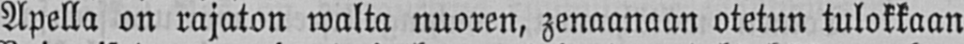Apella on rajaton walta nuoren, zenaanaan otetun tulokkaan
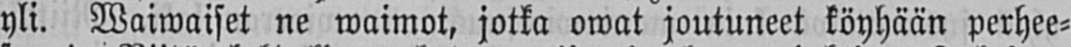yli. Waiwaiset ne waimot, jotka owat joutuneet köyhään perhee-
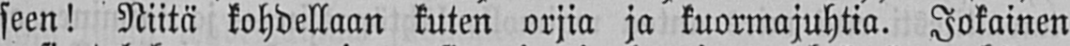seen! Niitä kohdellaan kuten orjia ja kuormajuhtia. Jokainen
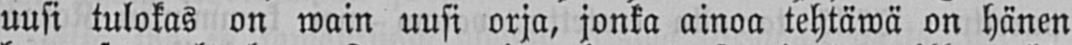uusi tulokas on wain uusi orja, jonka ainoa tehtäwä on hänen
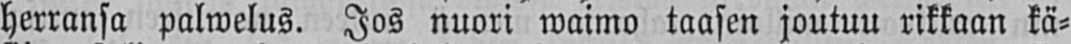herransa palwelus. Jos nuori waimo taasen joutuu rikkaan kä-
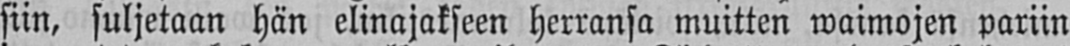siin, suljetaan hän elinajakseen herransa muitten waimojen pariin
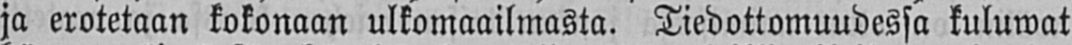ja erotetaan kokonaan ulkomaailmasta. Tiedottomuudessa kuluwat
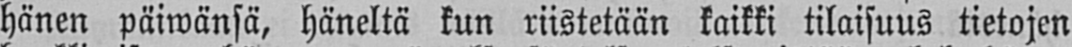hänen päiwänsä, häneltä kun riistetään kaikki tilaisuus tietojen
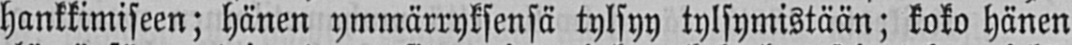hankkimiseen; hänen ymmärryksensä tylsyy tylsymistään; koko hänen
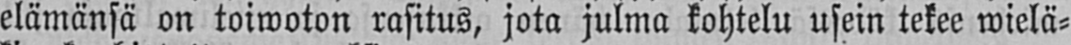elämänsä on toiwoton rasitus, jota julma kohtelu usein tekee wielä-
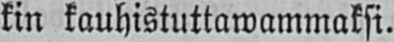kin kauhistuttawammaksi.
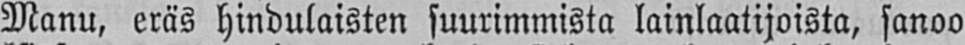Manu, eräs hindulaisten suurimmista lainlaatijoista, sanoo
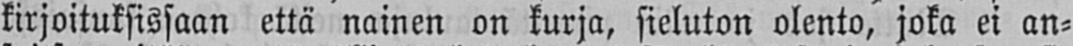kirjoituksissaan että nainen on kurja, sieluton olento, joka ei an-
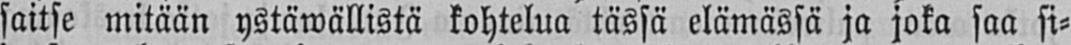saitse mitään ystäwällistä kohtelua tässä elämässä ja joka saa si-
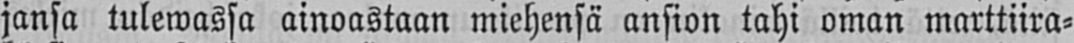jansa tulemassa ainoastaan miehensä ansion tahi oman marttiira-
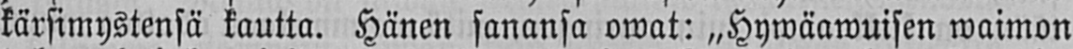kärsimystensä kautta. Hänen sanansa omat: «Hywäawuisen waimon
